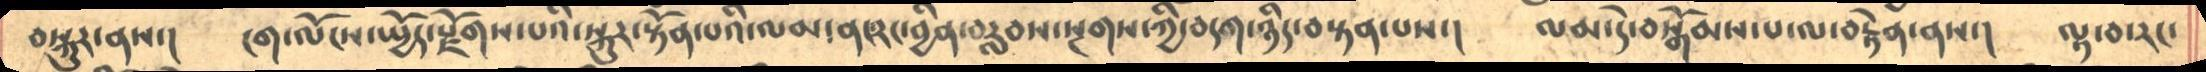བསྐུར་ནས་།        ངག་ལོངས་སྤྱོད་རྫོགས་པའི་སྐུར་སྟོན་པའི་ལམ་ནངརང་བྱིན་བརླབ་སྔགས་ཀྱི་བདག་ཉིད་བསྟན་པས་།   ལམ་དེ་བསྒོམས་པ་ལ་བརྟེན་ནས་།    ལྟ་བ་རང་
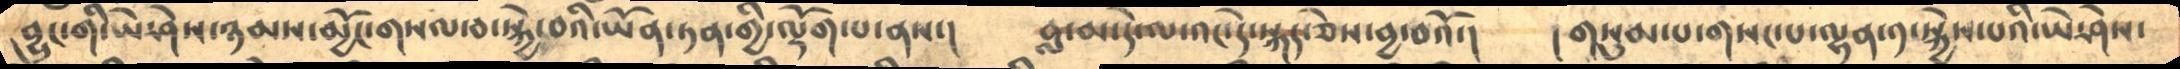བྱུང་གི་ཡེ་ཤེས་ཉམས་མྱོང་གསལ་བ་སྐྱེ་བའི་ཡོན་ཏན་གྱི་ལྡོག་པ་ནས་།     བླ་མ་དེ་ལ་འང་དེ་སྐད་ཅེས་བྱ་བའོ་།     །གསུམ་པ་གསང་པ་ལྷན་༡་སྐྱེས་པའི་ཡེ་ཤེས་
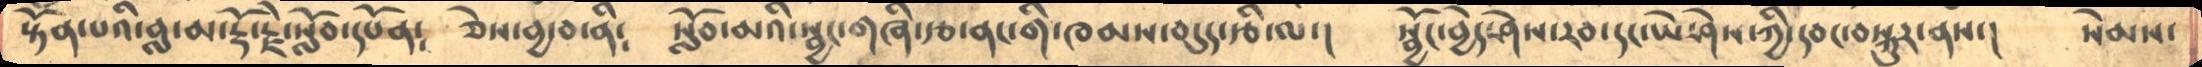སྟོན་པའི་བླ་མ་རྡོ་རྗེ་སློབ་དཔོན༴  ཅེས་བྱ་བ་ནི༴   སློབ་མའི་སྦྱང་གཞི་རྩ་ནང་གི་ཁམས་བདུད་རྩི་ལ་།      སྦྱོང་བྱེད་ཤེས་རབ་དང་ཡེ་ཤེས་ཀྱི་དབང་བསྐུར་ནས་།    སེམས་
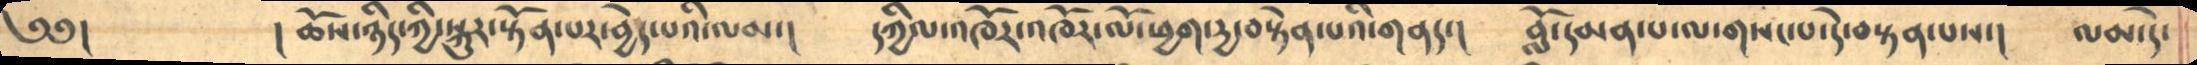༄༅།     །  ཆོས་ཉིད་ཀྱི་སྐུར་སྟོན་པར་བྱེད་པའི་ལམ་།    དཀྱིལ་འཁོར་འཁོར་ལོ་ཕྱག་དྱ་བསྟེན་པའི་གནད་།    བློ་དམན་པ་ལ་གསང་པ་དེ་བསྟན་པས་།    ལམ་དེ་
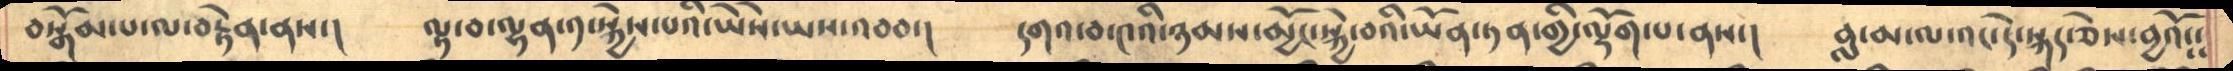བསྒོམས་པ་ལ་བརྟེན་ནས་།      ལྟ་བ་ལྷན་༡་སྐྱེས་པའི་ཡཻས་ཡས་འབབ་།     དགའ་བ་༤འི་ཉམས་མྱོང་སྐྱེ་བའི་ཡོན་ཏན་གྱི་ལྡོག་པ་ནས་།   བླ་མ་ལ་འང་དེ་སྐད་ཅེས་བྱའོ༴༴
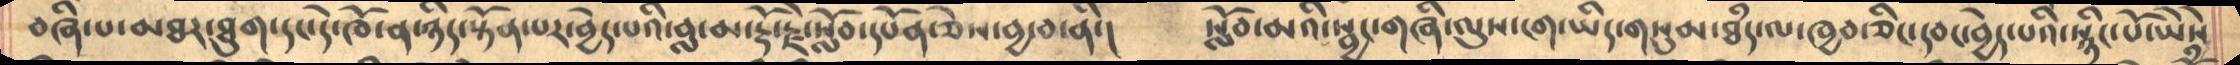བཞི་པ་མཐར་ཐུག་དང་དེ་ཁོ་ན་ཉིད་སྟོན་པར་བྱེད་པའི་བླ་མ་རྡོ་རྗེ་སློབ་དཔོན་ཅེས་བྱ་བ་ནི་།   སློབ་མའི་སྦྱང་གཞི་ལུས་ངག་ཡིད་གསུམ་ཐཾད་ལ་ཁྱབ་ཅིང་དབང་བྱེད་པའི་སྙིང་པོ་ཡཻས་
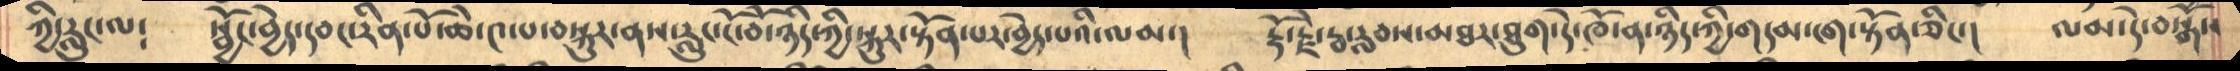ཀྱི་རླུང་ལ༴    སྦྱོང་བྱེད་དབང་རིན་པོ་ཆེ་༤་པ་བསྐུར་ནས་རླུང་ངོ་བོ་ཉིད་ཀྱི་སྐུར་སྟོན་པར་བྱེད་པའི་ལམ་།     རྡོ་རྗེ་རྦ་རླབས་མཐར་ཐུག་དེ་ཁོ་ན་ཉིད་ཀྱི་གདམ་ངག་སྟོན་ཅིང་།    ལམ་དེ་བསྒོཾས
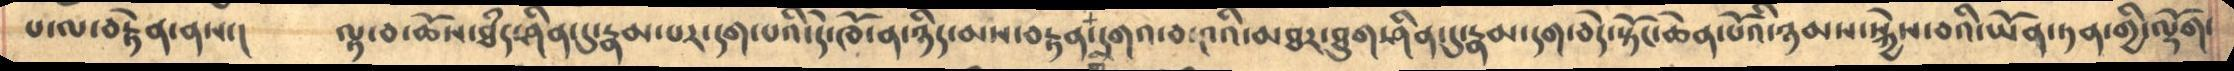པ་ལ་བརྟེན་ནས་།      ལྟ་བ་ཆོས་ཐཾད་ཤིན་དུ་རྣམ་པར་དག་པའི་དེ་ཁོ་ན་ཉིད་མས་བརྟན་དགའ་བ་༤འི་མཐར་ཐུག་ཤིན་དུ་རྣམ་དག་བདེ་སྟོང་ཆེན་པོའི་ཉམས་སྐྱེས་བའི་ཡོན་ཏན་གྱི་ལྡོག་
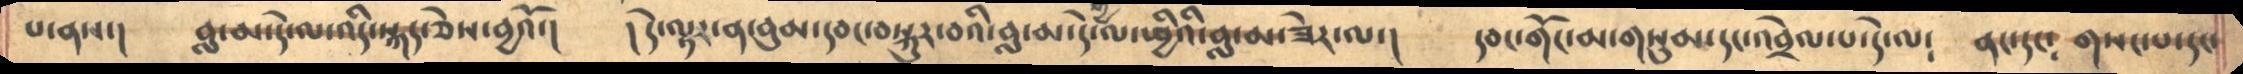པ་ནས་།      བླ་མ་དེ་ལ་འདི་སྐད་ཅེས་བྱའོ་།      ། དེ་ལྟར་ན་བུམ་དབང་བསྐུར་བའི་བླ་མ་དེ་ལ་ཕྱིའི་བླ་མ་ཟེར་ལ་།    དབང་གོང་མ་གསུམ་དང་།བྲེལ་པ་དེ་ལ༴     ནང་དང༴ གསང་བ་དང་
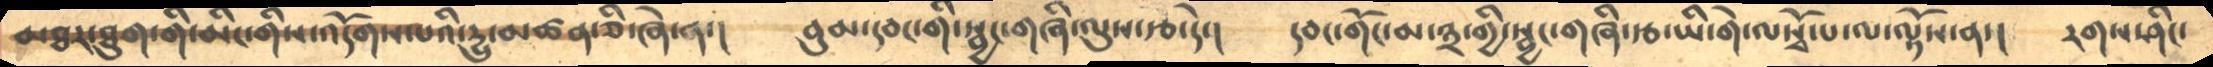མཐར་ཐུག་གི་མིང་གིས་འདོགས་པའི་དྱུ་མཚན་ཅི་ཞེ་ན་།     བུམ་དབང་གི་སྦྱང་གཞི་ལུས་རྩ་དེ་།     དབང་གོང་མ་༣་གྱི་སྦྱང་གཞི་རྩ་ཡི་གེ་ལསྭོ་པ་ལ་ལྟོས་ན་།      རགས་ཤིང་
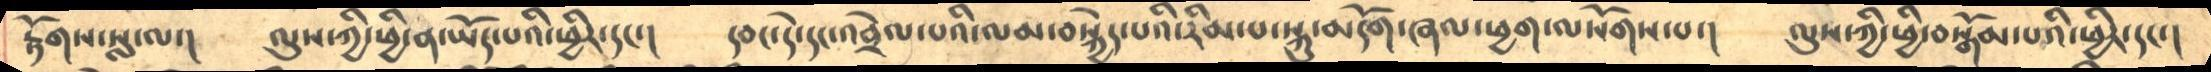རྟོགས་སླ་ལ་།     ལུས་ཀྱི་ཕྱི་ན་ཡོད་པའི་ཕྱིར་དང་།     དབང་དེ་དང་འབྲེལ་བའི་ལམ་བསྐྱེད་པའི་རིམ་པ་སྐུ་མདོག་ཞལ་ཕྱག་ལསོགས་པ་།      ལུས་ཀྱི་ཕྱི་བསྒོམ་པའི་ཕྱིར་དང་།
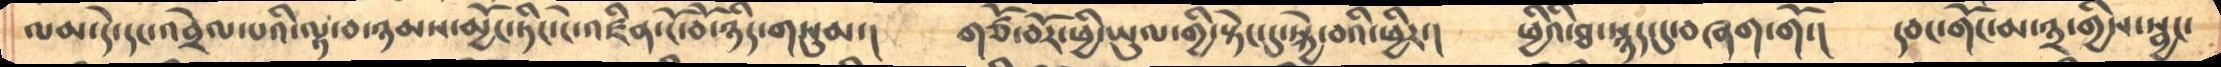ལམ་དེ་དང་འབྲེལ་པའི་ལྟ་བ་ཉམས་མྱོང་ཏིང་ངེ་འཛིན་ངོ་བོ་ཉིད་གསུམ་།       གཙོ་བོར་ཕྱི་ཡུལ་གྱི་སྟེང་དུ་སྐྱེ་བའི་ཕྱིར་།     ཕྱིའི་ཐ་སྙད་དུ་བཞག་གོ་།          དབང་གོང་མ་༣་གྱིས་སྦྱང་
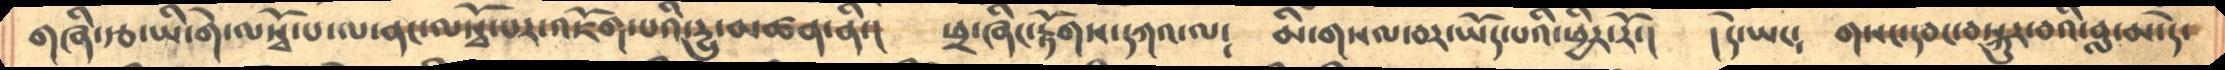གཞི་རྩ་ཡི་གེ་ལསྭོ་པ་ལ་ནང་ལསྭོ་པར་འཇོག་པའི་དདྱུ་མཚན་ནི་།     ཕྲ་ཞིང་རྟོགས་བཀའ་ལ༴       མི་གསལ་བར་ཡོད་པའི་ཕྱིར་རོ་།     དེར་ཡང༴  གསང་དབང་བསྐུར་བའི་བླ་མ་དེ་
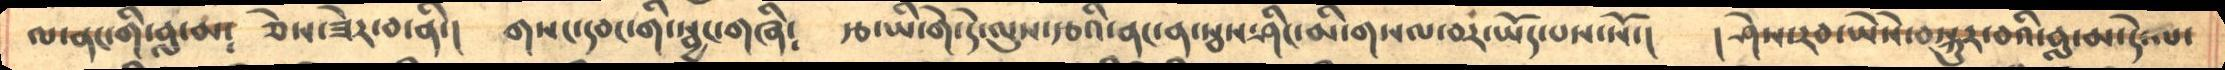ལ་ནང་གི་བླ་མ༴    ཅེས་ཟེར་བ་ནི་།     གསང་དབང་གི་སྦྱང་གཞི༴   རྩ་ཡི་གེ་དེ་ལུས་རྩའི་ནང་ན་སྦས་ཤིང་མི་གསལ་བར་ཡོད་པས་སོ་།    །  ཤེས་རབ་ཡཻས་བསྐུར་བའི་བླ་མ་དེ་ལ་
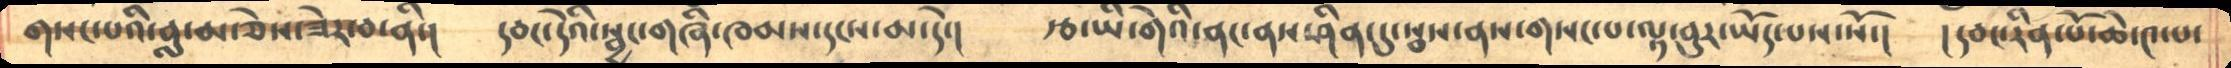གསང་བའི་བླ་མ་ཅེས་ཟེར་བ་ནི་།      དབང་དེའི་སྦྱང་གཞི་ཁམས་དངས་མ་དེ་།    རྩ་ཡི་གེའི་ནང་ནས་ཤིན་དུ་སྦས་ནས་གསང་པ་ལྟ་བུར་ཡོད་པས་སོ་།     །དབང་རིན་པོ་ཆེ་༤་པ་
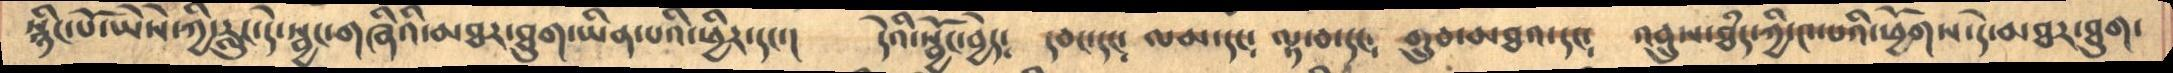སྙིང་པོ་ཡཻས་ཀྱི་རླུང་དེ་སྦྱང་གཞིའི་མཐར་ཐུག་ཡིན་པའི་ཕྱིར་དང་།    དེའི་སྦྱོང་བྱེད༴    དབང་དང༴  ལམ་དང་༴    ལྟ་བ་དང༴      གྲུབ་མཐའ་དང༴   འབྲུས་ཐཾད་ཀྱི་༤་པའི་ཕྱོགས་དེ་མཐར་ཐུག་
